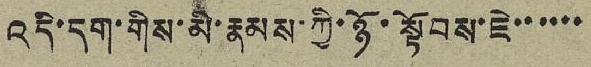འདི་དག་གིས་མི་རྣམས་ཀྱི་ཉོ་སྟོབས་ཇེ་་་་་་
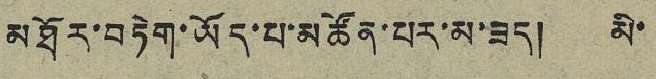མཐོར་བཏེག་ཡོད་པ་མཚོན་པར་མ་ཟད། མི་
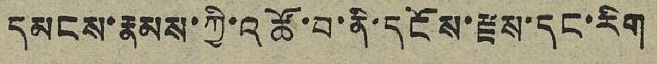དམངས་རྣམས་ཀྱི་འཚོ་བ་ནི་དངོས་རྫས་དང་རིག
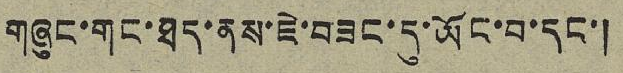གཞུང་གང་ཐད་ནས་ཇེ་བཟང་དུ་ཡོང་བ་དང་།
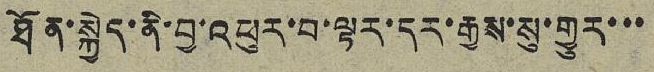ཐོན་སྐྱེད་ནི་བྱ་འཕུར་བ་ལྟར་དར་རྒྱས་སུ་གྱུར་་་
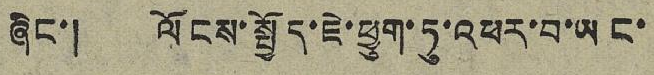ཞིང་། ལོངས་སྤྱོད་ཇེ་ཕྱུག་ཏུ་འཕར་བ་ཡང་
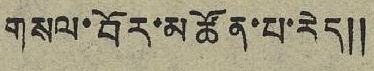གསལ་བོར་མཚོན་པ་རེད༎
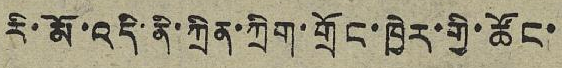རི་མོ་འདི་ནི་ཀྲིན་ཀྲིག་གྲོང་ཁྱེར་གྱི་ཚོང་
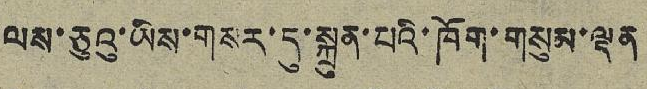ལས་ཅུའུ་ཡིས་གསར་དུ་སྐྲུན་པའི་ཁོག་གསུམ་ལྡན
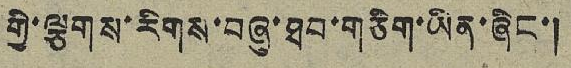གྱི་ལྕགས་རིགས་བཞུ་ཐབ་གཅིག་ཡིན་ཞིང་།
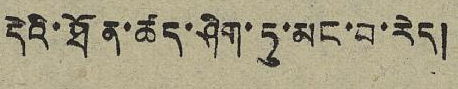དེའི་ཐོན་ཚད་ཤིག་ཏུ་མང་བ་རེད།
